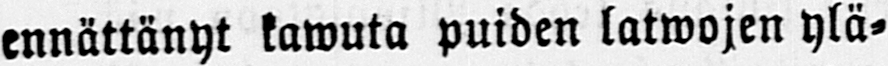ennättänyt kawuta puiden latwojen ylä-
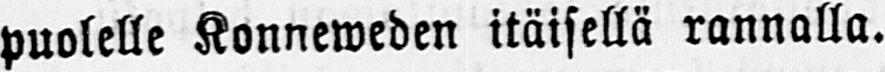puolelle Konneweden itäisellä rannalla.
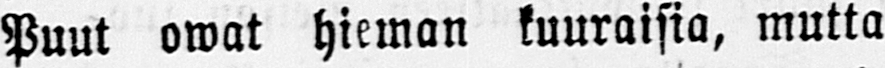Puut owat hieman kuuraisia, mutta
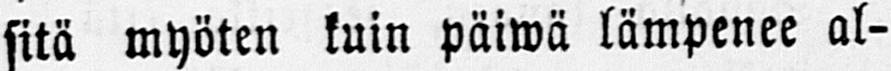sitä myöten kuin päiwä lämpenee al-
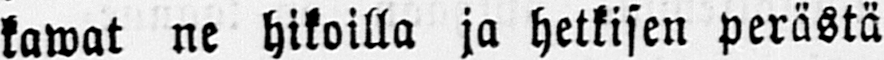kawat ne hikoilla ja hetkisen perästä
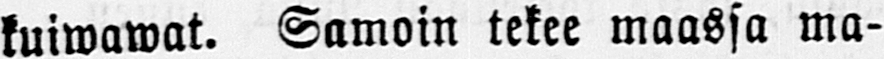kuiwawat. Samoin tekee maassa ma-
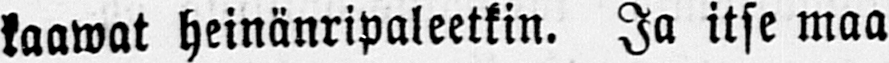kaawat heinänripaleetkin. Ja itse maa
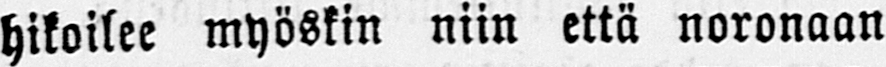hikoilee myöskin niin että noronaan
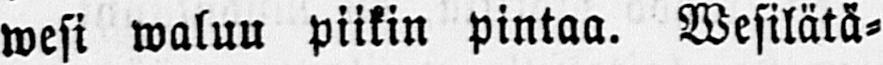wesi waluu piikin pintaa. Wesilätä-
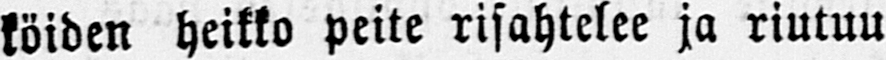köiden heikko peite risahtelee ja riutuu
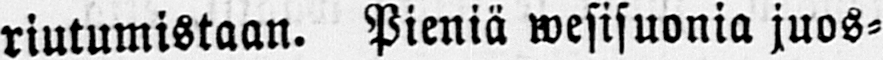riutumistaan. Pieniä wesisuonia juos-
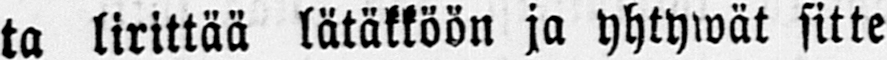ta lirittää lätäkköön ja yhtywät sitte
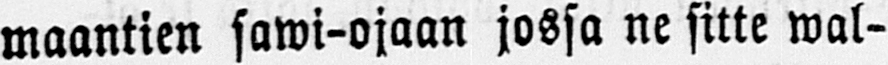maantien sawi-ojaan jossa ne sitte wal-
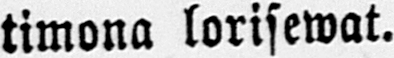timona lorisewat.
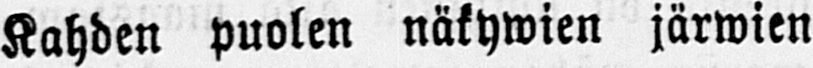Kahden puolen näkywien järwien
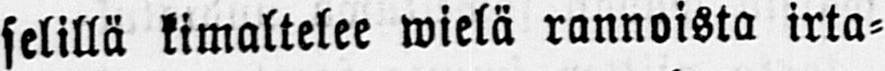selillä kimallelee wielä rannoista irta-
